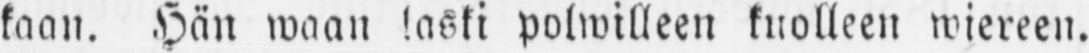kaan. Hän waan laski polwilleen kuolleen wiereen.
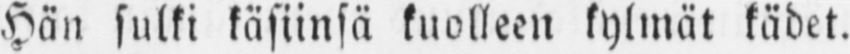Hän sulki käsiinsä kuolleen kylmät kädet.
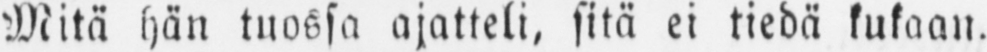Mitä hän tuossa ajatteli, sitä ei tiedä kukaan.
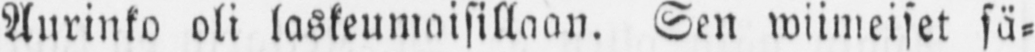Aurinko oli laskeumaisillaan. Sen wiimeiset sä-
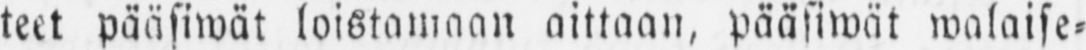teet pääsiwät loistawaan aittaan, pääsiwät walaise-
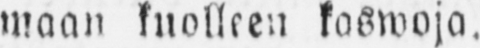maan kuolleen kaswoja.
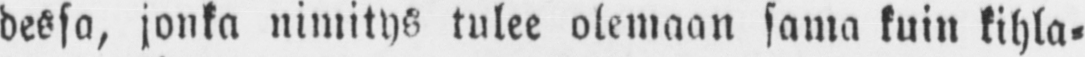dessa, jonka nimitys tulee olemaan sama kuin kihla-
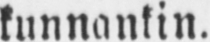kunnankin.
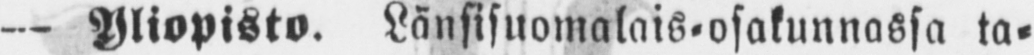— Yliopisto. Länsisuomalais-osakunnassa ta-
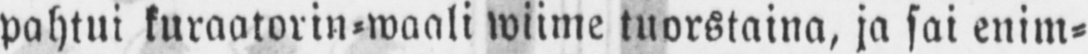pahtui kuraatorin-waali wiime tuorstaina, ja sai enim-
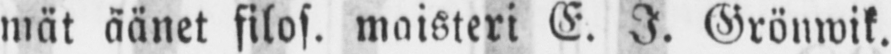mät äänet filos. maisteri E. I. Grönwik.
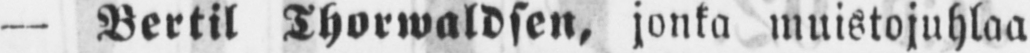— Bertil Thorwaldsen, jonka muistojuhlaa
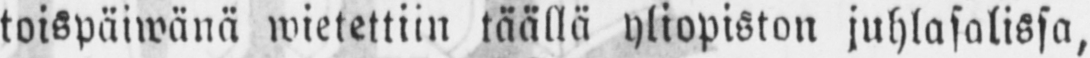toispäiwänä wietettiin täällä yliopiston juhlasalissa,
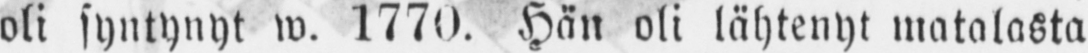oli syntynyt w. 1770. Hän oli lähtenyt matalasta
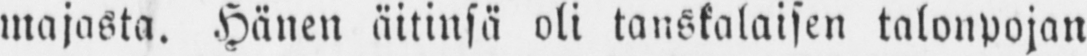majasta. Hänen äitinsä oli tanskalaisen talonpojan
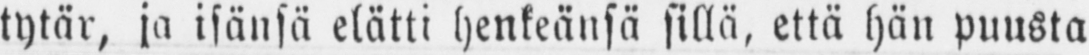tytär, ja isänsä elätti henkeänsä sillä, että hän puusta
